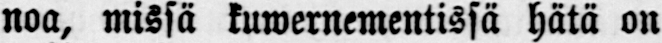noa, missä kuwernementissä hätä on
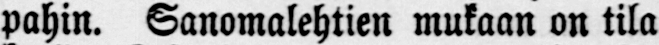pahin. Sanomalehtien mukaan on tila
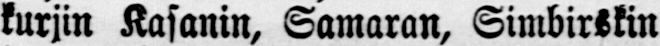kurjin Kasanin, Samaran, Simbirskin
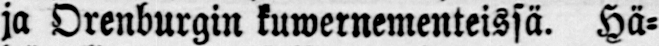ja Orenburgin kuwernementeissä. Hä-
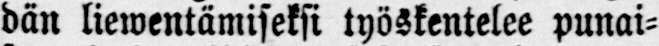dän liewentämiseksi työskentelee punai-
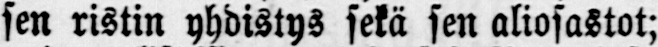sen ristin yhdistys sekä sen aliosastot;
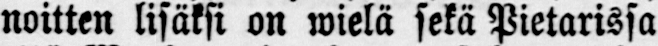noitten lisäksi on wielä sekä Pietarissa
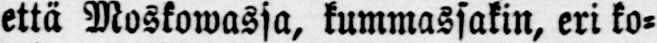että Moskowassa, kummassakin, eri ko-
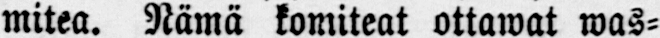mitea. Nämä komiteat ottawat was-
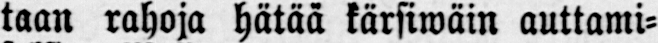taan rahoja hätää kärsiwäin auttami-
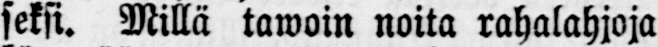seksi. Millä tawoin noita rahalahjoja
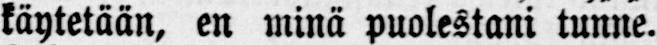käytetään, en minä puolestani tunne.
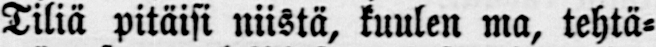Tiliä pitäisi niistä, kuulen ma, tehtä-
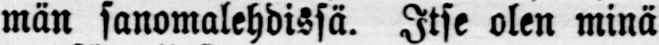män sanomalehdissä. Itse olen minä
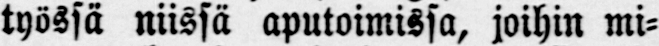työssä niissä aputoimissa, joihin mi-
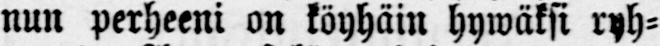nun perheeni on köyhäin hywäksi ryh-
